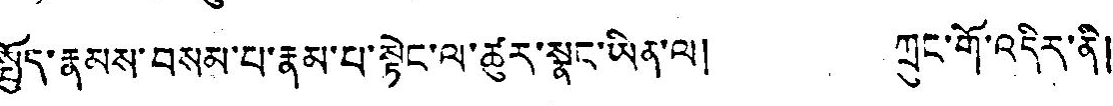སྤྱོད་རྣམས་བསམ་པ་རྣམ་པ་སྟེང་ལ་ཚུར་སྣང་ཡིན་ལ། ཀྲུང་གོ་འདིར་ནི།
